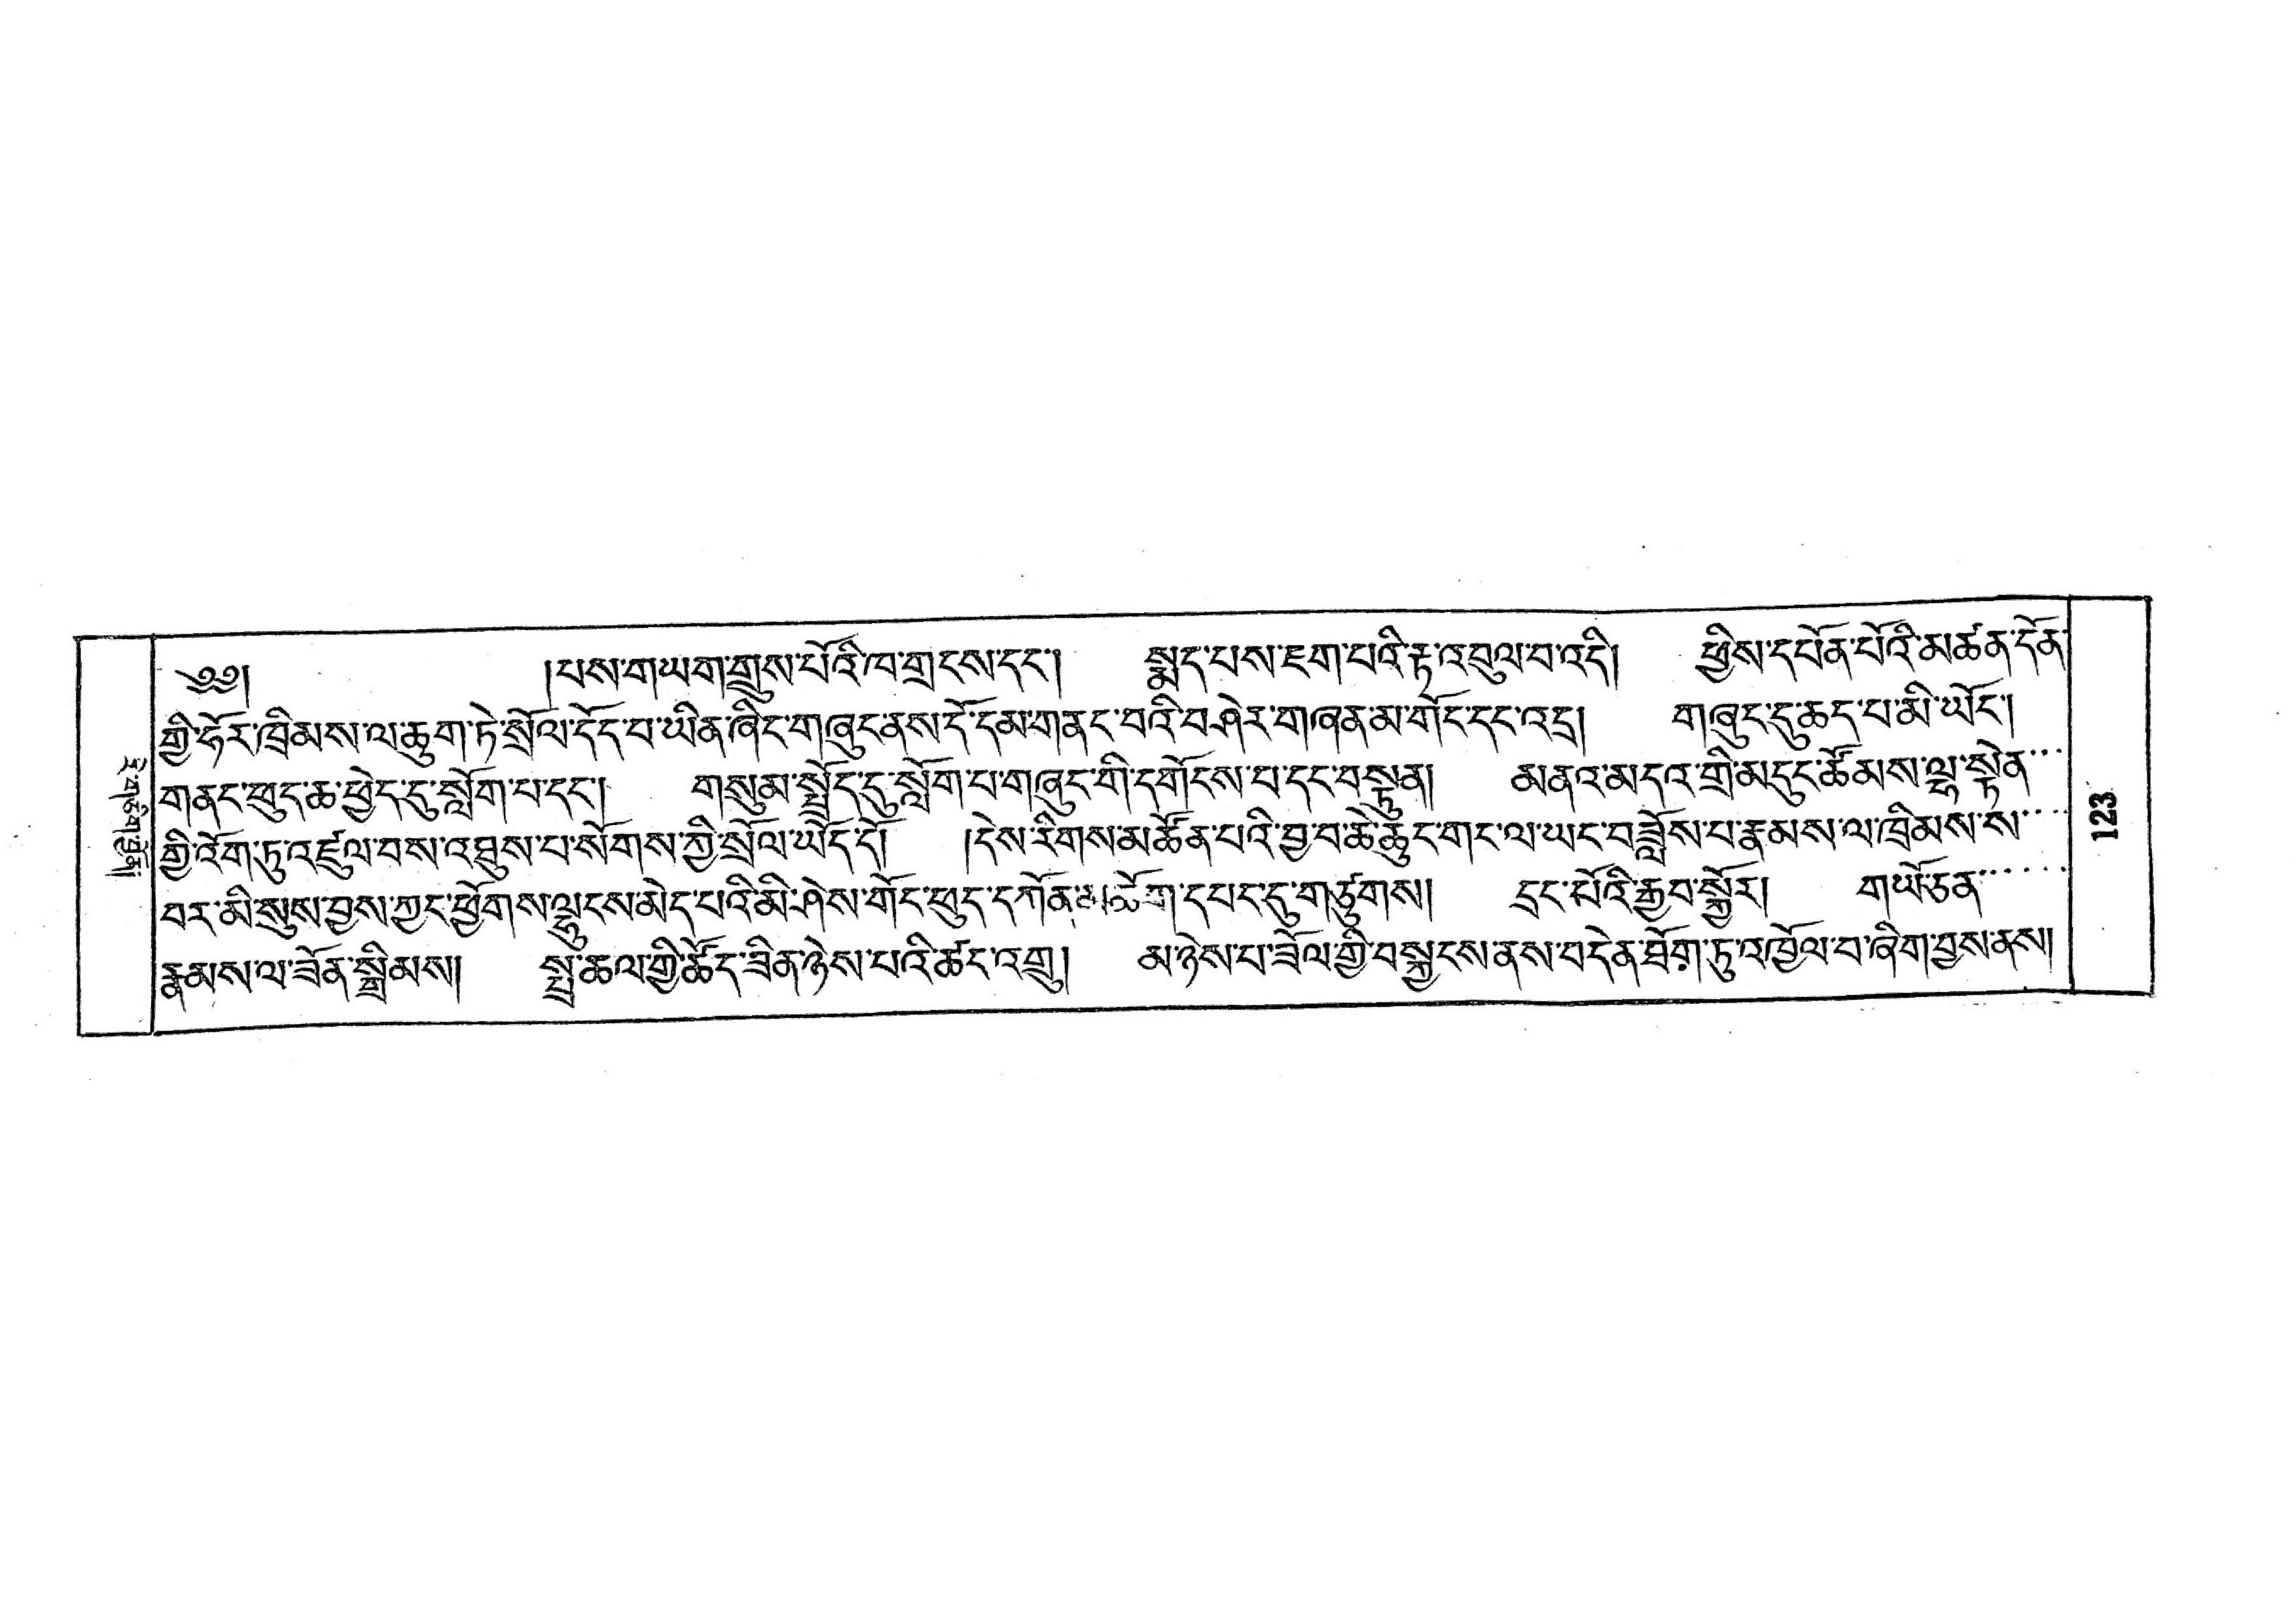རེ་གཅིག་རྒྱོན་།
༄༅། པས་གཡག་གྲུས་པོའི་ཁ་གྲངས་དང་། སྨད་པས་ཇག་པའི་རྟ་འབུལ་བ་འདི། ཕྱིས་དཔོན་པོའི་མཚན་དོན་
གྱི་ཧོར་ཁྲིམས་ལ་ཆུག་ཏེ་སྲོལ་དོད་པ་ཡིན་ཞིང་གཞུང་ནས་དོ་དམ་གནང་བའི་བཤེར་གཞན་མ་གོང་དང་འདྲ། གཞུང་དུ་ཆད་པ་མི་ཡོང་།
གནང་ཕུད་ཆ་ཕྱེད་དུ་སློག་པ་དང་། གསུམ་སྤྲོད་དུ་སློག་པ་གཞུང་གི་དགོངས་པ་དང་བསྟུན། མནའ་མདའ་གྲི་མདུང་ཚོམས་ལྷ་སྟེན་་་
གྱི་འོག་ཏུ་འཛུལ་བས་འཐུས་པ་སོགས་ཀྱི་སྲོལ་ཡོད་དོ། །དེས་རིགས་མཚོན་པའི་བྱ་བ་ཆེ་ཆུང་གང་ལ་ཡང་བཟློས་པ་རྣམས་ལ་ཁྲིམས་ས་་་་
བར་མི་སུས་བྱས་ཀྱང་ཕྱོགས་ལྷུངས་མེད་པའི་མི་ཤེས་གོང་ཕུད་དཀོན་མཆོག་དཔང་དུ་གཙུགས། དྲང་པོའི་རྒྱབ་སྐྱོར། གཡོ་ཅན་་་་་
རྣམས་ལ་ཟོན་སྒྲིམས། སྤྲ་ཆལ་གྱི་ཚོད་ཟིན་ཉེས་པའི་ཚང་འགྲུ། མ་ཉེས་པ་ཟོལ་གྱི་བསྐྱངས་ནས་བདེན་ཐོག་ཏུ་འཁྱོལ་བ་ཞིག་བྱས་ནས།
